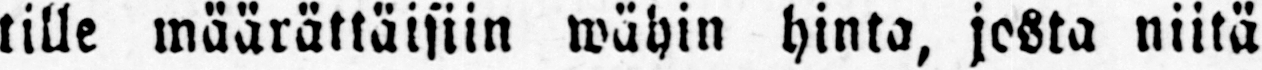tille määrättäisiin wähin hinta, josta niitä
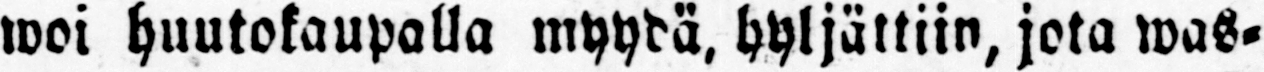woi huutokaupalla myydä, hyljättiin, jota was-
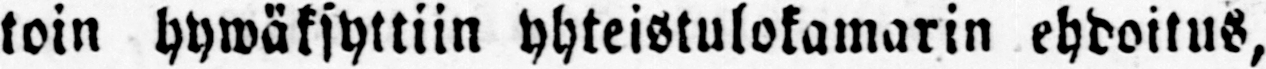toin hywäksyttiin yhteistulokamarin ehdoitus,
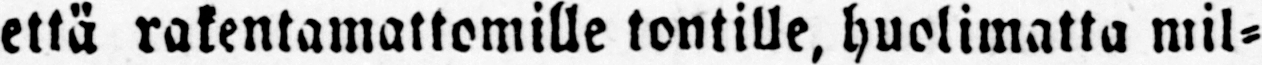että rakentamattomille tontille, huolimatta mil-
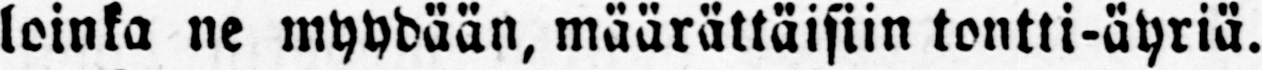loinka ne myydään, määrättäisiin tontti-äyriä.
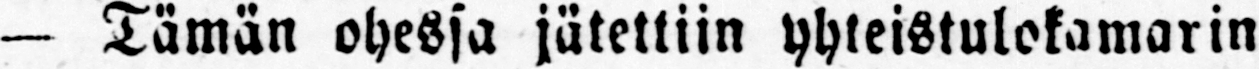— Tämän ohessa jätettiin yhteistulokamarin
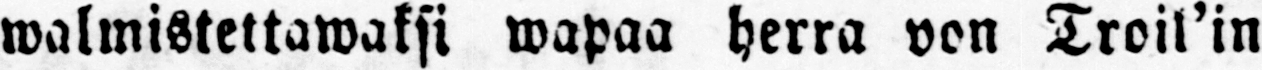walmistettawaksi wapaa herra von Troil’in
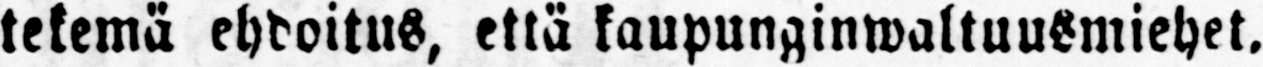tekemä ehdoitus, että kaupunginwaltuusmiehet.
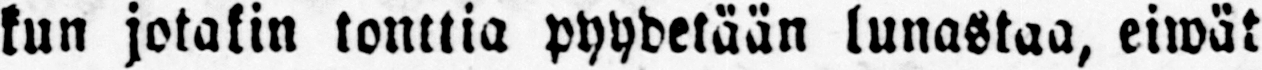kun jotakin tonttia pyydetään lunastaa, eiwät
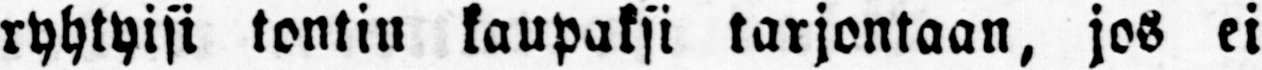ryhtyisi tontin kaupaksi tarjontaan, jos ei
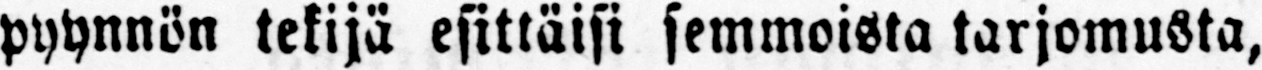pyynnön tekijä esittäisi semmoista tarjomusta,
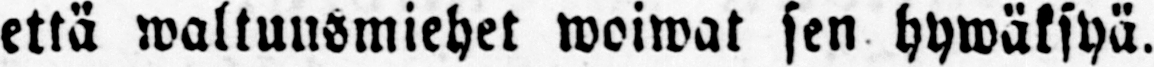että waltuusmiehet woiwat sen hywäksyä.
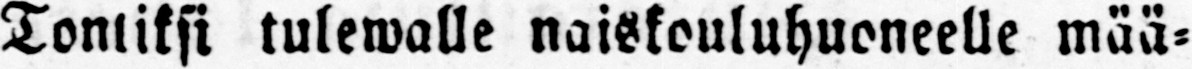Tontiksi tulewalle naiskouluhuoneelle mää-
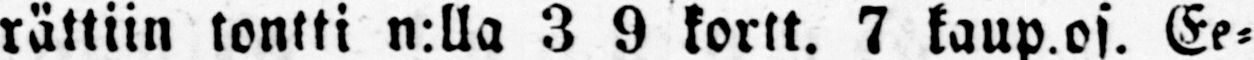rättiin tontti n:lla 3 9 kortt. 7 kaup.os. Ee-
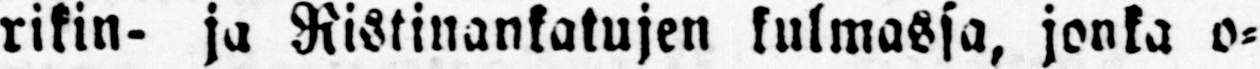rikin- ja Ristinankatujen kulmassa, jonka o-
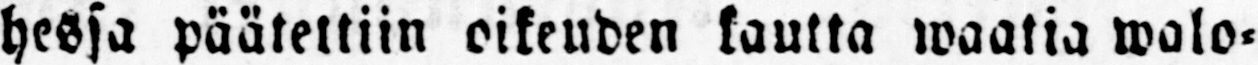hessa pääteltiin oikeuden kautta waatia walo-
